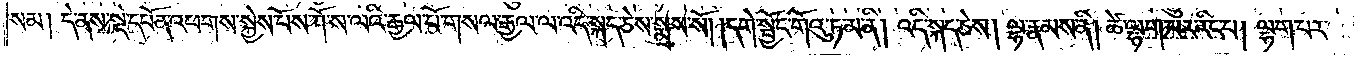སམ། དེ་ནས་སྡེ་དཔོན་འཕགས་སྐྱེས་པོས་ཀོ་ས་ལའི་རྒྱལ་པོ་གསལ་རྒྱལ་ལ་འདི་སྐད་ཅེས་སྨྲས་སོ། །དགེ་སྦྱོང་གོའུ་ཏ་མ་ནི། འདི་སྐད་ཅེས། ལྷ་རྣམས་ནི། ཚེ་ལྷག་པར་རིང་པ། ལྷག་པར་
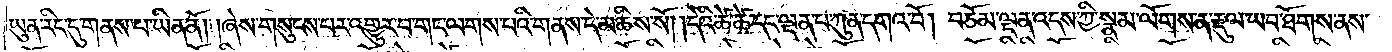ཡུན་རིང་དུ་གནས་པ་ཡིན་ནོ། །ཞེས་གསུངས་པར་འགྱུར་བ་གང་ལགས་པའི་གནས་དེ་མཆིས་སོ། །དེའི་ཚེ་ཚེ་དང་ལྡན་པ་ཀུན་དགའ་བོ། བཅོམ་ལྡན་འདས་ཀྱི་སྣམ་ལོགས་ན་རྡུལ་ཡབ་ཐོགས་ནས་
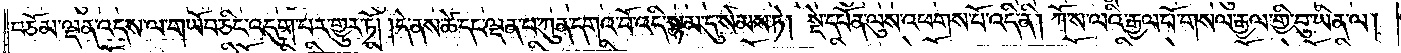བཅོམ་ལྡན་འདས་ལ་གཡོབ་ཅིང་འདུག་པར་གྱུར་ཏོ། །དེ་ནས་ཚེ་དང་ལྡན་པ་ཀུན་དགའ་བོ་འདི་སྙམ་དུ་སེམས་ཏེ། སྡེ་དཔོན་ལུས་འཕགས་པོ་འདི་ནི། ཀོ་ས་ལའི་རྒྱལ་པོ་གསལ་རྒྱལ་གྱི་བུ་ཡིན་ལ།
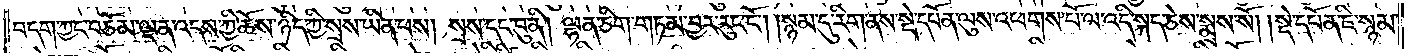བདག་ཀྱང་བཅོམ་ལྡན་འདས་ཀྱི་ཆོས་ཉིད་ཀྱི་སྲས་ཡིན་པས། སྲས་དང་བུ་ནི། ལྷན་ཅིག་གཏམ་བྱར་རུང་ངོ༌། །སྙམ་དུ་རིག་ནས་སྡེ་དཔོན་ལུས་འཕགས་པོ་ལ་འདི་སྐད་ཅེས་སྨྲས་སོ། །སྡེ་དཔོན་ཇི་སྙམ་
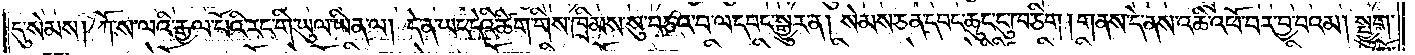དུ་སེམས། ཀོ་ས་ལའི་རྒྱལ་པོའི་རང་གི་ཡུལ་ཡིན་ལ། དེ་ན་ཡང་དེའི་ཚིག་གིས་ཁྲིམས་སུ་བཅའ་བ་ལ་དབང་སྒྱུར་ན། སེམས་ཅན་དབང་ཆུང་ངུ་ཁ་ཅིག །གནས་དེ་ནས་འཆི་འཕོ་བར་བྱ་བའམ། སྤྱུག་
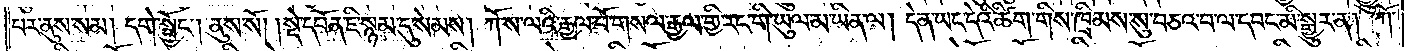པར་ནུས་སམ། དགེ་སྦྱོང༌། ནུས་སོ། །སྡེ་དཔོན་ཇི་སྙམ་དུ་སེམས། ཀོ་ས་ལའི་རྒྱལ་པོ་གསལ་རྒྱལ་གྱི་རང་གི་ཡུལ་མ་ཡིན་ལ། དེ་ན་ཡང་དེའི་ཚིག་གིས་ཁྲིམས་སུ་བཅའ་བ་ལ་དབང་མི་སྒྱུར་ན། ཀོ་
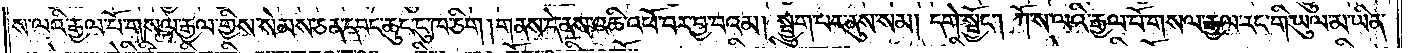ས་ལའི་རྒྱལ་པོ་གསལ་རྒྱལ་གྱིས་སེམས་ཅན་དབང་ཆུང་ངུ་ཁ་ཅིག །གནས་དེ་ནས་འཆི་འཕོ་བར་བྱ་བའམ། སྤྱུག་པར་ནུས་སམ། དགེ་སྦྱོང༌། ཀོ་ས་ལའི་རྒྱལ་པོ་གསལ་རྒྱལ་རང་གི་ཡུལ་མ་ཡིན་
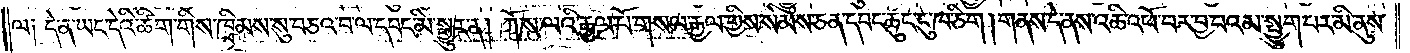ལ༏ དེ་ན་ཡང་དེའི་ཚིག་གིས་ཁྲིམས་སུ་བཅའ་བ་ལ་དབང་མི་སྒྱུར་ན། ཀོ་ས་ལའི་རྒྱལ་པོ་གསལ་རྒྱལ་གྱིས་སེམས་ཅན་དབང་ཆུང་ངུ་ཁ་ཅིག །གནས་དེ་ནས་འཆི་འཕོ་བར་བྱ་བའམ་སྤྱུག་པར་མི་ནུས་
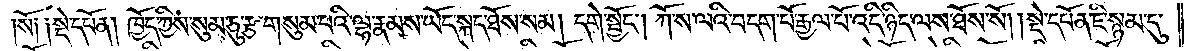སོ ༑  ༑སྡེ་དཔོན། ཁྱོད་ཀྱིས་སུམ་ཅུ་རྩ་གསུམ་པའི་ལྷ་རྣམས་ཡོད་སྐད་ཐོས་སམ། དགེ་སྦྱོང༌། ཀོ་ས་ལའི་བདག་པོ་རྒྱལ་པོ་འདི་ཉིད་ལས་ཐོས་སོ། །སྡེ་དཔོན་ཇི་སྙམ་དུ་
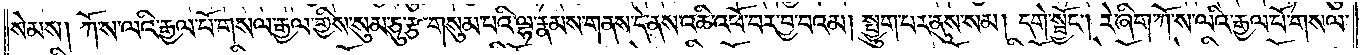སེམས། ཀོ་ས་ལའི་རྒྱལ་པོ་གསལ་རྒྱལ་གྱིས་སུམ་ཅུ་རྩ་གསུམ་པའི་ལྷ་རྣམས་གནས་དེ་ནས་འཆི་འཕོ་བར་བྱ་བའམ། སྤྱུག་པར་ནུས་སམ། དགེ་སྦྱོང༌། རེ་ཞིག་ཀོ་ས་ལའི་རྒྱལ་པོ་གསལ་
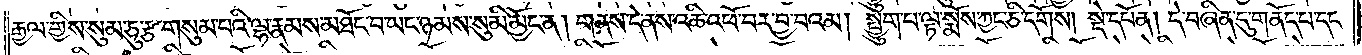རྒྱལ་གྱིས་སུམ་ཅུ་རྩ་གསུམ་པའི་ལྷ་རྣམས་མཐོང་བ་ཡང་ཉམས་སུ་མི་མྱོང་ན། གནས་དེ་ནས་འཆི་འཕོ་བར་བྱ་བའམ། སྤྱུག་པ་ལྟ་སྨོས་ཀྱང་ཅི་དགོས། སྡེ་དཔོན། དེ་བཞིན་དུ་གནོད་པ་དང་
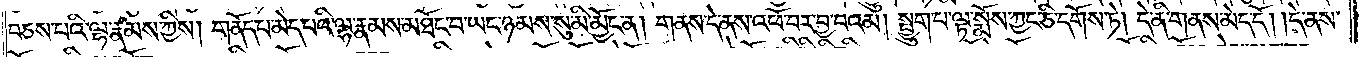བཅས་པའི་ལྷ་རྣམས་ཀྱིས། གནོད་པ་མེད་པའི་ལྷ་རྣམས་མཐོང་བ་ཡང་ཉམས་སུ་མི་མྱོང་ན། གནས་དེ་ནས་འཕོ་བར་བྱ་བའམ། སྤྱུག་པ་ལྟ་སྨོས་ཀྱང་ཅི་དགོས་ཏེ། དེ་ནི་གནས་མེད་དོ། །དེ་ནས་
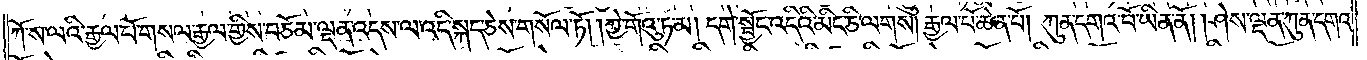ཀོ་ས་ལའི་རྒྱལ་པོ་གསལ་རྒྱལ་གྱིས་བཅོམ་ལྡན་འདས་ལ་འདི་སྐད་ཅེས་གསོལ་ཏོ། །ཀྱེ་གོའུ་ཏ་མ། དགེ་སྦྱོང་འདིའི་མིང་ཅི་ལགས། རྒྱལ་པོ་ཆེན་པོ། ཀུན་དགའ་བོ་ཡིན་ནོ། །ཤེས་ལྡན་ཀུན་དགའ་
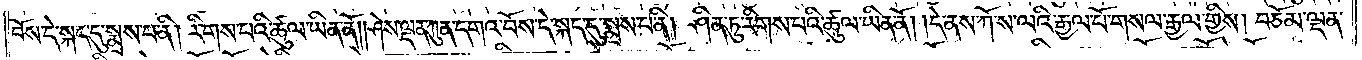བོས་དེ་སྐད་དུ་སྨྲས་པ་ནི། རིགས་པའི་ཚུལ་ཡིན་ནོ། །ཤེས་ལྡན་ཀུན་དགའ་བོས་དེ་སྐད་དུ་སྨྲས་པ་ནི། ཤིན་ཏུ་རིགས་པའི་ཚུལ་ཡིན་ནོ། །དེ་ནས་ཀོ་ས་ལའི་རྒྱལ་པོ་གསལ་རྒྱལ་གྱིས། བཅོམ་ལྡན་
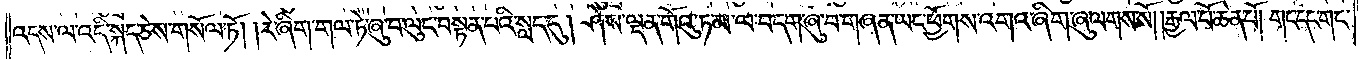འདས་ལ་འདི་སྐད་ཅེས་གསོལ་ཏོ། །རེ་ཞིག་གལ་ཏེ་ཞུ་བ་ལུང་བསྟན་པའི་སླད་དུ། ཤེས་ལྡན་གོའུ་ཏ་མ་ལ་བདག་ཞུ་བ་གཞན་ཡང་ཕྱོགས་འགའ་ཞིག་ཞུ་ལགས་སོ། །རྒྱལ་པོ་ཆེན་པོ། གང་དང་གང་
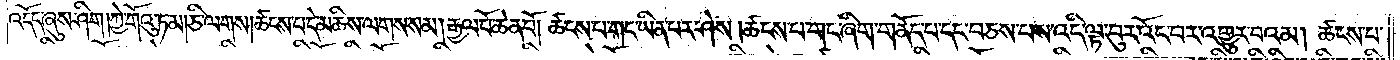འདོད་ཞུས་ཤིག །ཀྱེ་གོའུ་ཏ་མ། ཅི་ལགས། ཚངས་པ་དེ་མཆིས་ལགས་སམ། རྒྱལ་པོ་ཆེན་པོ། ཚངས་པ་གང་ཡིན་པར་ཤེས་།ཚངས་པ་གང་ཞིག་གནོད་པ་དང་བཅས་པས་འདི་ལྟ་བུར་འོང་བར་འགྱུར་བའམ། ཚངས་པ་
